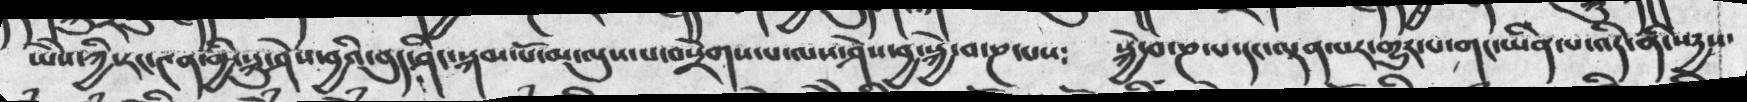ཡེེས་ཀྱི་རང་༤ན་གྱི་སྐུ་ཤེས་བྱའི་བུད་ཤིང་སྐམ་པོ་མ་ལུས་པ་བསྲེགས་པ་ལས་ཤེས་བྱ་སྐྱེ་བ་ཎ་པས༴  སྐྱེ་བ་ཎ་པ་དང་ལྡན་པར་གྱུར་པ་གང་ཡིན་པ་འདི་ནི་སདྱས་
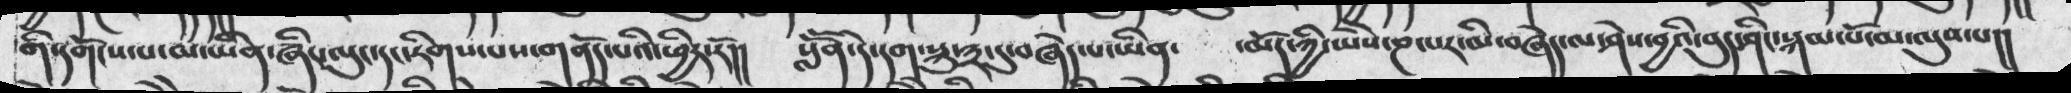གི་དགོངས་པ་མ་ཡིན་ཞིང་ལུང་དང་རིགས་པས་གནོད་པའི་ཕྱིར་རོ།།  སློོན་དེ་དག་སྐུ་༣་དུ་བཞེད་པ་ཡིན་  ་མོད་ཀྱི་ཡཻས་ཎ་པར་མི་བཞེད་ལ་ཤེས་བྱའི་བུད་ཤིང་སྐམ་པོ་མ་ལུས་པ།།
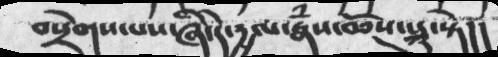བསྲེགས་པས་ཞི་དེ་དྱལ་རྣཾས་ཆོས་སྐུ་སྟེ།།
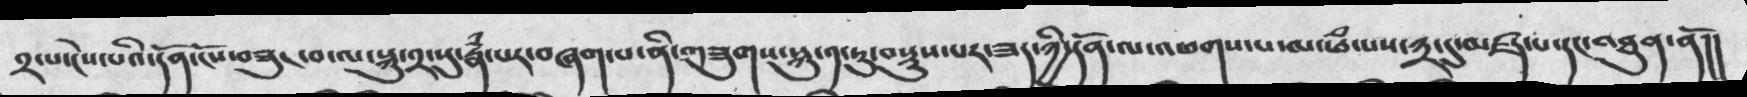༢་པ་ངེས་པའི་དོན་ངོས་བཟུང་བ་ལ་སྐུ་༢་སུ་རྣཾ་པར་བཞག་པ་ནི་གཟུགས་སྐུ་༡་ཏུ་བསྡུས་པར་ཟད་ཀྱི་དོན་ལ་འཕགས་པ་མ་ཕཾ་པས་༣་དུ་མཛད་པ་དང་འཐུན་ནོ།།
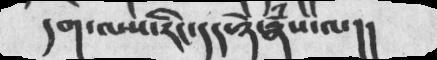དག་ལས་རིང་དད་ཉེ་རྣཾས་ལ།།
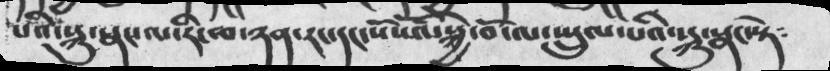པའི་སྐུ་སྣང་ལ་རི་ཆ་ཉན་རང་དང་སོ་སོའི་སྐྱེ་བོ་ལ་སྤྲུལ་པའི་སྐུ་སྣང་སྟེ༴
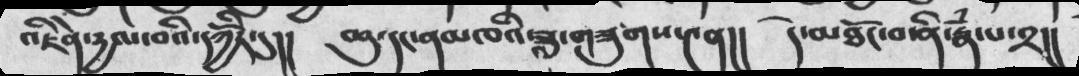འཇིེན་དྱལ་བའི་དཀྱོིར་དུ།།  ཆུ་དང་ནམཁའི་ཟླ་གཟུགས་༤ན།།  དེ་མཐོང་བ་ནི་རྣཾ་པ་༢།།
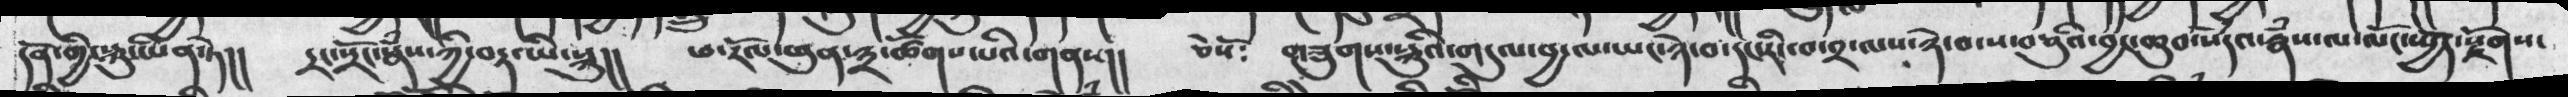དོན་གྱི་སྐུ་ཡིན་ཏེ།།  དྲང་སྲོང་རྣཾས་ཀྱི་བར་ཡི་སྐུ།།  ཕ་རོལ་ཕུན་༣་ཚོགས་པའི་གནས།།   ཅེསོ༴  གཟུགས་སྐུའི་གདུལ་བྱ་ལ་ཡང་ཉེ་བ་དང་རིང་བ་༢་ལས་ཉེ་བ་ས་བཅུའི་བྱང་ཆུབ་སེཾདའ་རྣཾས་ལ་ལོང་སྤྱོད་རྫོགས་
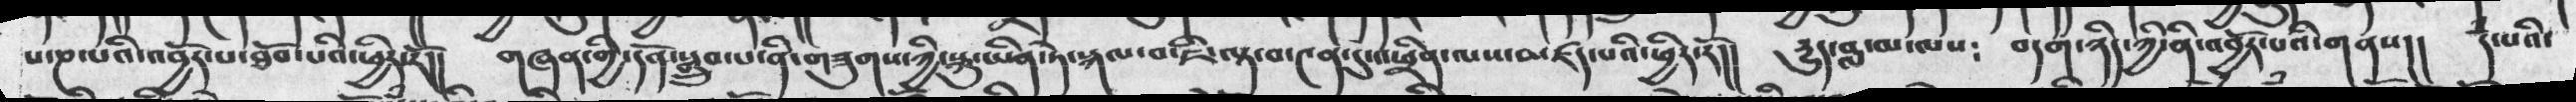པ་ཎ་པའི་འབྱོར་པ་ཐོབ་པའི་ཕྱིར་རོ།།   གཞན་གྱི་དོན་སྒྲུབ་པ་ནི་གཟུགས་ཀྱི་སྐུ་ཡིན་ཏེ་སྐལ་བ་ཇི་ལྟ་བ་༤ན་དུ་འཕྲིན་ལས་མཛད་པའི་ཕྱིར་རོ།།   དྱུད་བླ་མ་ལས༴   བདག་ཉིད་ཀྱི་ནི་འབྱོར་པའི་གནས།།  དཾ་པའི་
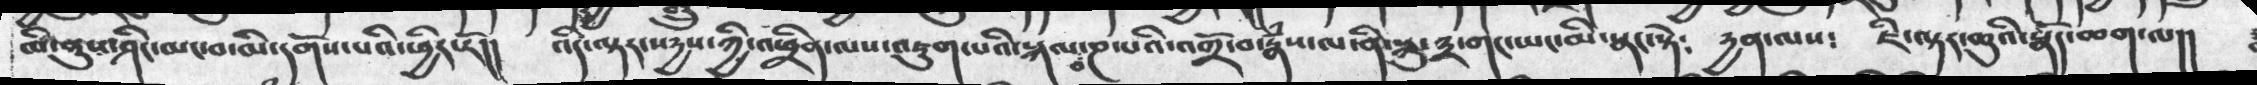མི་ནུས་ཤིང་མང་བ་མི་དགོས་པའི་ཕྱིར་རོ།།  འདི་ལྟར་སདྱས་ཀྱི་འཕྲིན་ལས་འཇུག་པའི་སྐལ་བ་ཎ་པའི་འགྲོ་བ་རྣཾས་ལ་ནི་སྐུ་༣་གང་ཡང་མི་སྣང་སྟེ༴  དྱན་ལས༴   ཇི་ལྟར་ཆུའི་སྣོད་ཆག་ལ།།
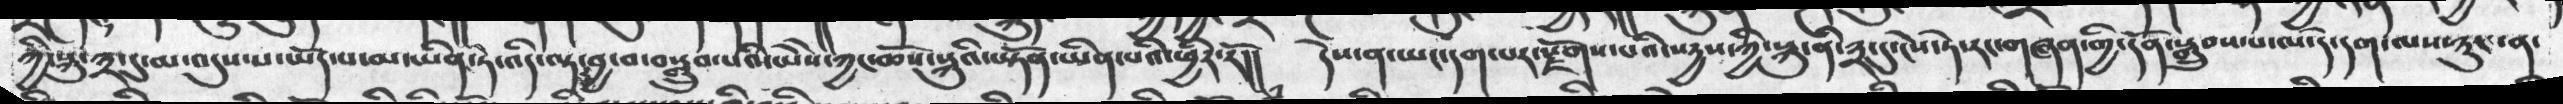ཀྱི་སྐུ་༣་དུ་མ་འདུས་པ་ཡོད་པ་མ་ཡིན་ཏེ་འདི་ལྟར་བྱ་བ་བསྒྲུབ་པའི་ཡེེས་ཀྱང་ཆོས་སྐུའི་ཡྟོན་ཡིན་པའི་ཕྱིར་རོ།།  དེས་ན་ཡང་དག་པར་རྫོགས་པའི་སདྱས་ཀྱི་སྐུ་ནི་༣་དུ་ངེས་ཏེ་རང་གཞན་གྱི་དོན་སྒྲུབས་པ་ལ་དེ་དག་ལས་ཉུང་ན་
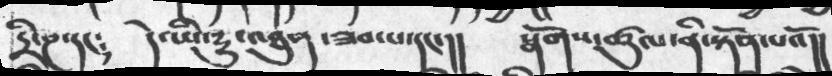དྲི་ཎ་དང༴  དེ་ཡི་དྱུ་འཐུན་ཟབ་པ་དང་།།  སྣོགས་ཚུལ་ནི་སྟོན་པའོ།།
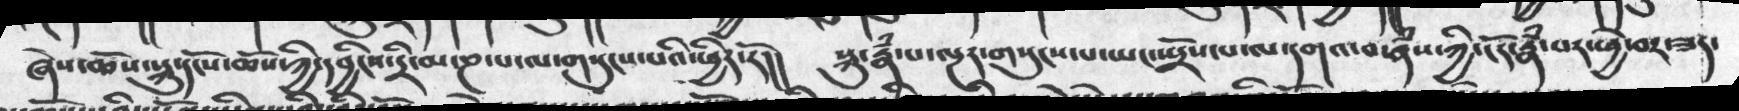ཞེས་ཆོས་སྐུ་དངོས་ཆོས་ཀྱི་དབྱིངས་དྲི་མ་ཎ་པ་ལ་གསུངས་པའི་ཕྱིར་རོ།།  སྐུ་རྣཾ་པ་ལྔར་གསུངས་པ་ཡང་སྤྲོས་པ་ལ་དགའ་བ་རྣཾས་ཀྱི་ངོར་རྣཾ་པར་ཕྱེ་བར་ཟད་
